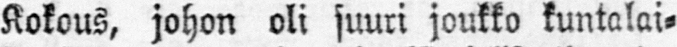Kokous, johon oli suun joukko kuntalai-
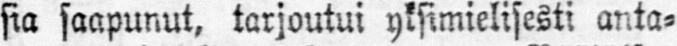sia saapunut, tarjoutui yksimielisesti anta-
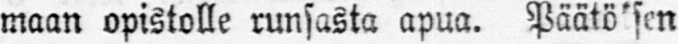maan opistolle runsasta apua. Päätötsen
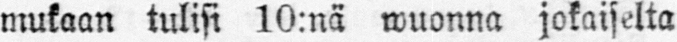mukaan tulisi 10:nä wuonna jokaiselta
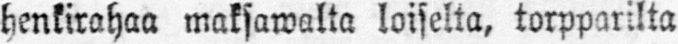henkirahaa maksawalta loiselta, torpparilta
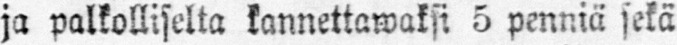ja palkolliselta kannettawaksi 5 penniä sekä
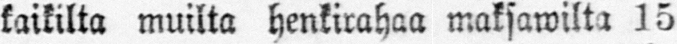kaikilta muilta henkirahaa maksawilta 15
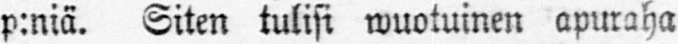p:niä. Siten tulisi wuotuinen apuraha
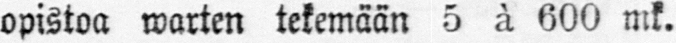opistoa warten tekemään 5 ä 600 mk.
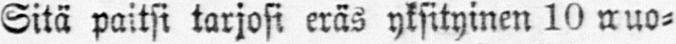Sitä paitsi tarjosi eräs yksityinen 10 wuo-
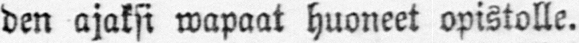don ajaksi wapaat huoneet opistolle.
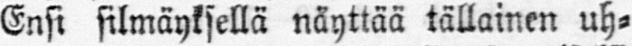Ensi silmäyksellä näyttää tällainen uh-
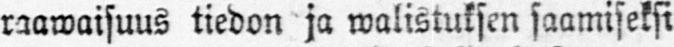raawaisuus tiedon ja walistuksen saamiseksi
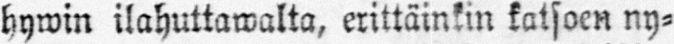hywin ilahuttawalta, erittäinkin katsoen ny-
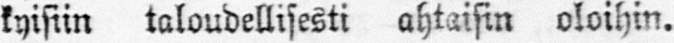kyisiin taloudellisesti ahtaisin oloihin.
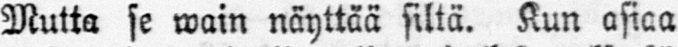Mutta se wain näyttää siltä. Kun asiaa
